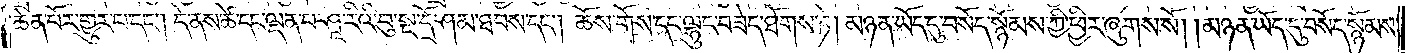ཆེན་པོར་གྱུར་པ་དང༌། དེ་ནས་ཚེ་དང་ལྡན་པ་ཤཱ་རིའི་བུ་སྔ་དྲོ་ཤམ་ཐབས་དང༌། ཆོས་གོས་དང་ལྷུང་བཟེད་ཐོགས་ཏེ། མཉན་ཡོད་དུ་བསོད་སྙོམས་ཀྱི་ཕྱིར་ཞུགས་སོ། །མཉན་ཡོད་དུ་བསོད་སྙོམས་
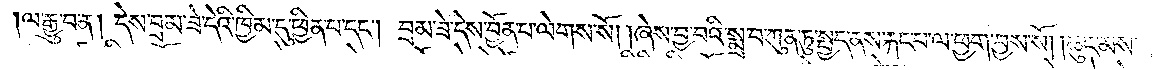ལ་རྒྱུ་བ་ན། དེས་བྲམ་ཟེ་དེའི་ཁྱིམ་དུ་ཕྱིན་པ་དང༌། བྲམ་ཟེ་དེས་བྱོན་པ་ལེགས་སོ། །ཞེས་བྱ་བའི་སྨྲ་བ་ཀུན་ཏུ་སྤྱད་ནས་རྐང་པ་ལ་ཕྱག་བྱས་སོ། །ཆུང་མས་
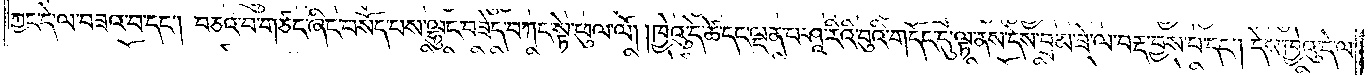ཀྱང་དེ་ལ་བཟའ་བ་དང༌། བཅའ་བ་གཙང་ཞིང་བསོད་པས་ལྷུང་བཟེད་བཀང་སྟེ་ཕུལ་ལོ། །ཁྱེའུ་དེ་ཚེ་དང་ལྡན་པ་ཤཱ་རིའི་བུའི་གདོང་དུ་ལྟ་ནས་དེས་བྲམ་ཟེ་ལ་བརྡ་བྱས་པ་དང༌། དེས་ཁྱེའུ་དེ་ལ་
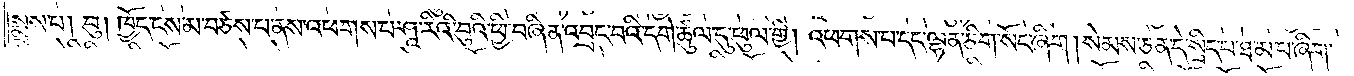སྨྲས་པ། བུ། ཁྱོད་ངས་མ་བཙས་པ་ནས་འཕགས་པ་ཤཱ་རིའི་བུའི་ཕྱི་བཞིན་འབྲང་བའི་དགེ་ཚུལ་དུ་ཕུལ་གྱི། འཕགས་པ་དང་ལྷན་ཅིག་སོང་ཞིག །སེམས་ཅན་དེ་སྲིད་པ་ཐ་མ་པ་ཞིག་
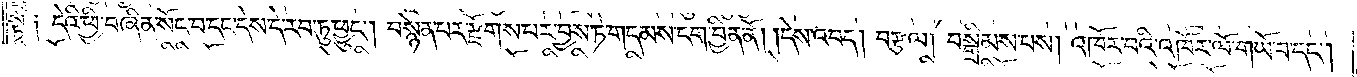སྟེ༑ དེའི་ཕྱི་བཞིན་སོང་བ་དང་དེས་དེ་རབ་ཏུ་ཕྱུང༌། བསྙེན་པར་རྫོགས་པར་བྱས་ཏེ་གདམས་ངག་བྱིན་ནོ། །དེས་འབད། བརྩལ། བསྒྲིམས་པས། འཁོར་བའི་འཁོར་ལོ་གཡོ་བ་དང༌།
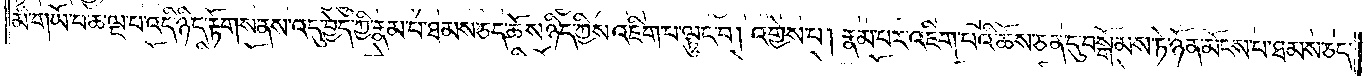མི་གཡོ་བ་ཆ་ལྔ་པ་འདི་ཉིད་རྟོགས་ནས་འདུ་བྱེད་ཀྱི་རྣམ་པ་ཐམས་ཅད་ཆོས་ཉིད་ཀྱིས་འཇིག་པ་ལྟུང་བ། འགྱེས་པ། རྣམ་པར་འཇིག་པའི་ཆོས་ཅན་དུ་བསྒོམས་ཏེ་ཉོན་མོངས་པ་ཐམས་ཅད་
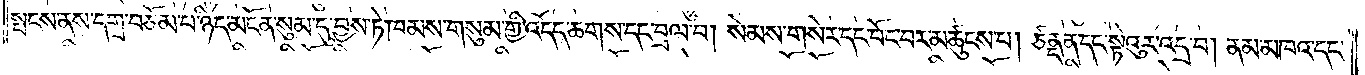སྤངས་ནས་དགྲ་བཅོམ་པ་ཉིད་མངོན་སུམ་དུ་བྱས་ཏེ་ཁམས་གསུམ་གྱི་འདོད་ཆགས་དང་བྲལ་བ། སེམས་གསེར་དང་བོང་བར་མཚུངས་པ། ཙནྡན་དང་སྟེའུར་འདྲ་བ། ནམ་མཁའ་དང་
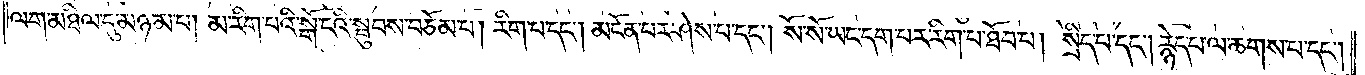ལག་མཐིལ་དུ་མཉམ་པ། མ་རིག་པའི་སྒོ་ངའི་སྦུབས་བཅོམ་པ། རིག་པ་དང༌། མངོན་པར་ཤེས་པ་དང༌། སོ་སོ་ཡང་དག་པར་རིག་པ་ཐོབ་པ། སྲིད་པ་དང༌། རྙེད་པ་ལ་ཆགས་པ་དང༌།
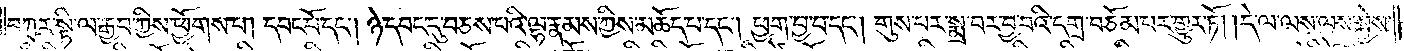བཀུར་སྟི་ལ་རྒྱབ་ཀྱིས་ཕྱོགས་པ། དབང་པོ་དང༌། ཉེ་དབང་དུ་བཅས་པའི་ལྷ་རྣམས་ཀྱིས་མཆོད་པ་དང༌། ཕྱག་བྱ་བ་དང༌། གུས་པར་སྨྲ་བར་བྱ་བའི་དགྲ་བཅོམ་པར་གྱུར་ཏོ། །དེ་ལ་ལས་ལས་སྐྱེས་
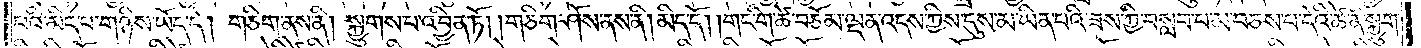པའི་མིད་པ་གཉིས་ཡོད་དེ། གཅིག་ནས་ནི། སྐྱུགས་པ་འབྱིན་ཏོ། །གཅིག་ཤོས་ནས་ནི། མིད་དོ། །གང་གི་ཚེ་བཅོམ་ལྡན་འདས་ཀྱིས་དུས་མ་ཡིན་པའི་ཟས་ཀྱི་བསླབ་པ་མ་བཅས་པ་དེའི་ཚེ་ནི་སྐྱུག་
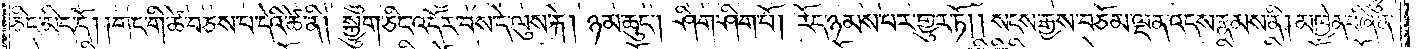ཅིང་མིད་དོ། །གང་གི་ཚེ་བཅས་པ་དེའི་ཚེ་ནི། སྐྱུག་ཅིང་འདོར་བས་དེ་ལུས་རྐེ། ཉམ་ཆུང༌། ཤིག་ཤིག་པོ། རོད་ཉམས་པར་གྱུར་ཏོ། །སངས་རྒྱས་བཅོམ་ལྡན་འདས་རྣམས་ནི། མཁྱེན་བཞིན་
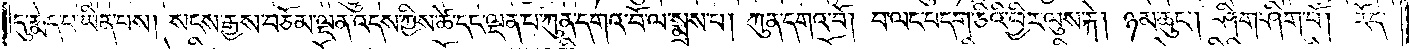དུ་རྨེད་པ་ཡིན་པས། སངས་རྒྱས་བཅོམ་ལྡན་འདས་ཀྱིས་ཚེ་དང་ལྡན་པ་ཀུན་དགའ་བོ་ལ་སྨྲས་པ། ཀུན་དགའ་བོ། བ་ལང་བདག་ཅིའི་ཕྱིར་ལུས་རྐེ། ཉམ་ཆུང༌། ཤིག་ཤིག་པོ། རོད་
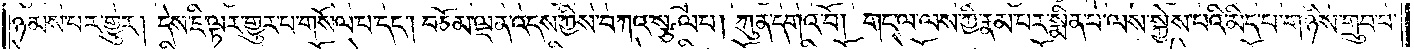ཉམས་པར་གྱུར། དེས་ཇི་ལྟར་གྱུར་པ་གསོལ་པ་དང༌། བཅོམ་ལྡན་འདས་ཀྱིས་བཀའ་སྩལ་པ། ཀུན་དགའ་བོ། གང་ལ་ལས་ཀྱི་རྣམ་པར་སྨིན་པ་ལས་སྐྱེས་པའི་མིད་པ་གཉིས་གྲུབ་པ་
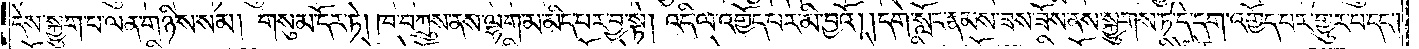དེས་སྐྱུག་པ་ལན་གཉིས་སམ། གསུམ་དོར་ཏེ། ཁ་བཀྲུས་ནས་ལྷག་མ་མིད་པར་བྱ་སྟེ། འདི་ལ་འགྱོད་པར་མི་བྱའོ། །དགེ་སློང་རྣམས་ཟས་ཟོས་ནས་སྐྱུགས་ཏེ་དེ་དག་འགྱོད་པར་གྱུར་པ་དང༌།
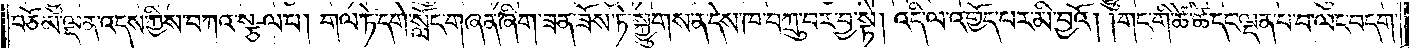བཅོམ་ལྡན་འདས་ཀྱིས་བཀའ་སྩལ་པ། གལ་ཏེ་དགེ་སློང་གཞན་ཞིག་ཟན་ཟོས་ཏེ་སྐྱུགས་ན་དེས་ཁ་བཀྲུ་བར་བྱ་སྟེ། འདི་ལ་འགྱོད་པར་མི་བྱའོ། །གང་གི་ཚེ་ཚེ་དང་ལྡན་པ་བ་ལང་བདག་
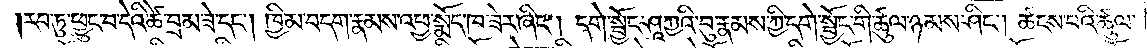།རབ་ཏུ་ཕྱུང་བ་དེའི་ཚེ་བྲམ་ཟེ་དང༌། ཁྱིམ་བདག་རྣམས་འཕྱ་སྨོད་ཁ་ཟེར་ཞིང༌། དགེ་སྦྱོང་ཤཱཀྱའི་བུ་རྣམས་ཀྱི་དགེ་སྦྱོང་གི་ཚུལ་ཉམས་ཤིང༌། ཚངས་པའི་ཚུལ་
